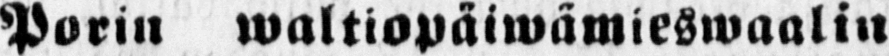Porin waltiopäiwämieswaalin
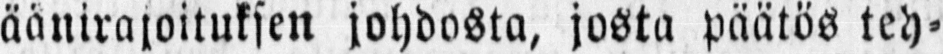äänirajoituksen johdosta, josta päätös teh-
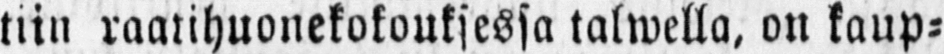tiin raatihuonekokouksessa talwella, on kaup-
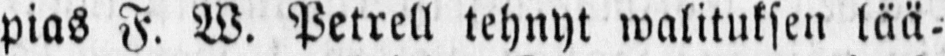pias F. W. Petrell tehnyt walituksen lää-
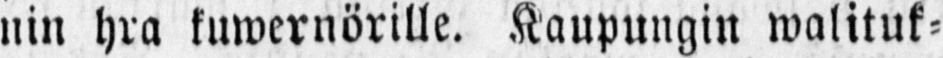nin hra kuwernörille. Kaupungin walituk-
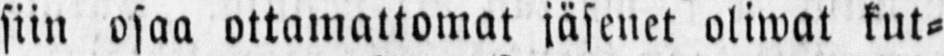siin osaa ottamattomat jäsenet oliwat kut-
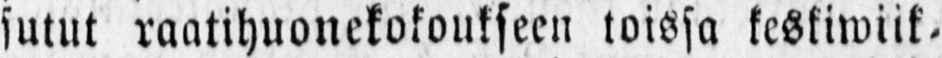sutut raatihuonekokoukseen toissa keskiwiik-
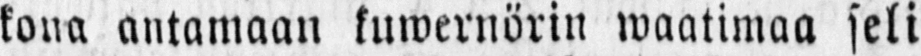kona antamaan kuwernörin waatimaa seli-
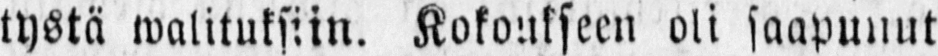tystä walituksiin. Kokoukseen oli saapunut
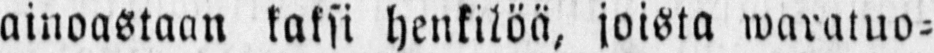ainoastaan kaksi henkilöä, joista waratuo-
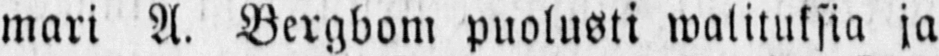mari A. Bergbom puolusti walituksia ja
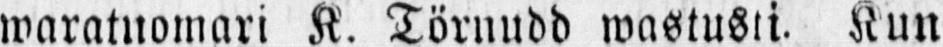waratuomari K. Törnudd wastusti. Kun
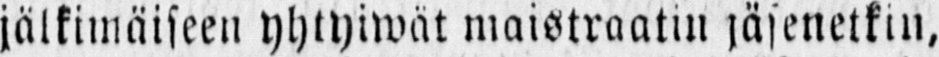jälkimäiseen yhtyiwät maistraatin jäsenetkin,
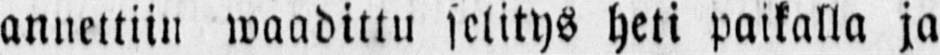annettiin waadittu selitys heti paikalla ja
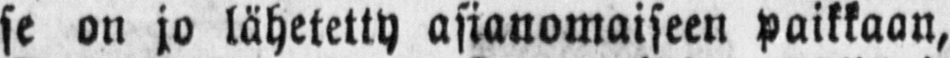se on jo lähetetty asianomaiseen paikkaan,
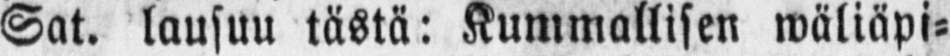Sat. lausuu tästä: Kummallisen wäliäpi-
